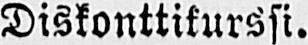Diskonttikurssi.
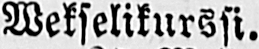Wekselikurssi.
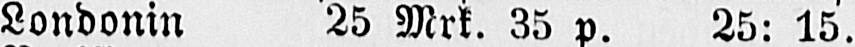Londonin 25 Mrk. 33 p. 25: 15.
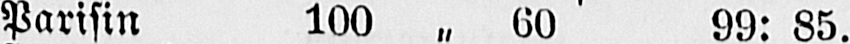Parisin 100 „ 60 99: 85.
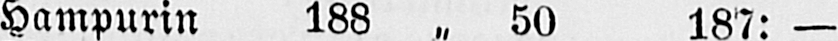Hampurin 188 „ 50 187: —
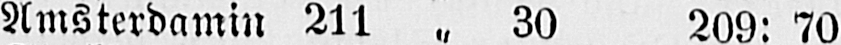Amsterdamin 211 „ 30 209: 70
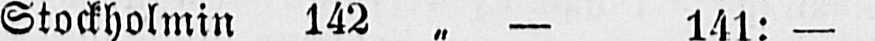Stockholmin 142 „ — 141: —
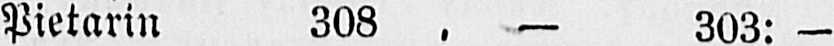Pietarin 308 , — 303: -
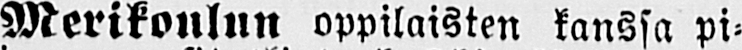Täkäläisen Merikoulun oppilaisten kanssa pi-
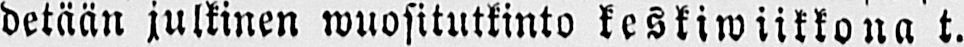detään julkinen wuositutkinto keskiwiikkona t.
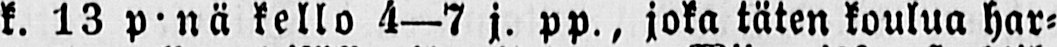k. 13 p. nä kello 4—7 j. pp., joka täten koulua har-
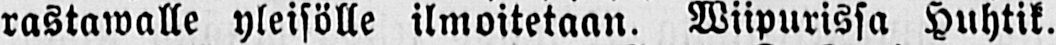rastawalle yleisölle ilmoitetaan. Wiipurissa Huhtik,
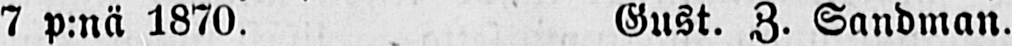7 p:nä 1870. Gust. Z. Sandman.
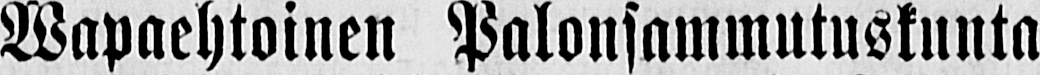Wapaehtoinen Palonsammutuskunta
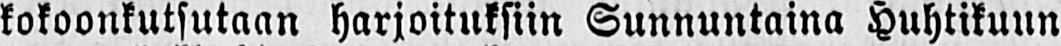kokoonkutsutaan harjoituksiin Sunnuntaina Huhtikuun
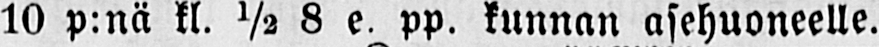10 p:nä kl. ½ 8 e. pp. kunnan asehuoneelle.
